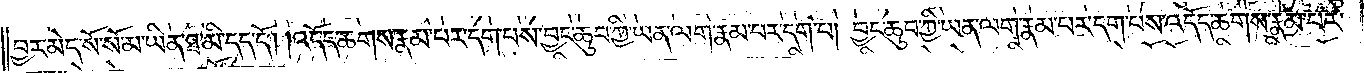བྱར་མེད་སོ་སོ་མ་ཡིན་ཐ་མི་དད་དོ། །འདོད་ཆགས་རྣམ་པར་དག་པས་བྱང་ཆུབ་ཀྱི་ཡན་ལག་རྣམ་པར་དག་པ། བྱང་ཆུབ་ཀྱི་ཡན་ལག་རྣམ་པར་དག་པས་འདོད་ཆགས་རྣམ་པར་
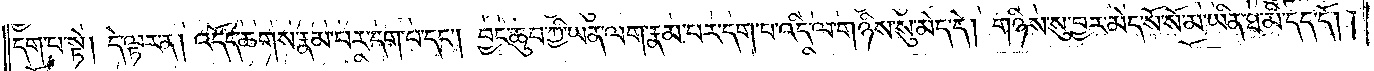དག་པ་སྟེ། དེ་ལྟར་ན། འདོད་ཆགས་རྣམ་པར་དག་པ་དང༌། བྱང་ཆུབ་ཀྱི་ཡན་ལག་རྣམ་པར་དག་པ་འདི་ལ་གཉིས་སུ་མེད་དེ། གཉིས་སུ་བྱར་མེད་སོ་སོ་མ་ཡིན་ཐ་མི་དད་དོ། །
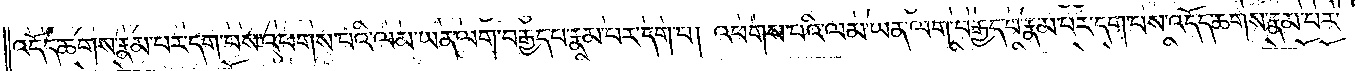འདོད་ཆགས་རྣམ་པར་དག་པས་འཕགས་པའི་ལམ་ཡན་ལག་བརྒྱད་པ་རྣམ་པར་དག་པ། འཕགས་པའི་ལམ་ཡན་ལག་བརྒྱད་པ་རྣམ་པར་དག་པས་འདོད་ཆགས་རྣམ་པར་
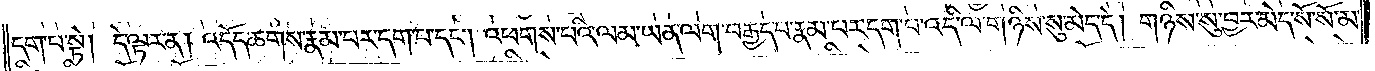དག་པ་སྟེ། དེ་ལྟར་ན། འདོད་ཆགས་རྣམ་པར་དག་པ་དང༌། འཕགས་པའི་ལམ་ཡན་ལག་བརྒྱད་པ་རྣམ་པར་དག་པ་འདི་ལ་གཉིས་སུ་མེད་དེ། གཉིས་སུ་བྱར་མེད་སོ་སོ་མ་
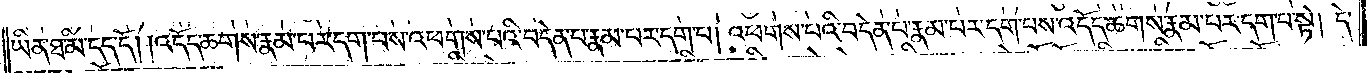ཡིན་ཐ་མི་དད་དོ། །འདོད་ཆགས་རྣམ་པར་དག་པས་འཕགས་པའི་བདེན་པ་རྣམ་པར་དག་པ། འཕགས་པའི་བདེན་པ་རྣམ་པར་དག་པས་འདོད་ཆགས་རྣམ་པར་དག་པ་སྟེ། དེ་
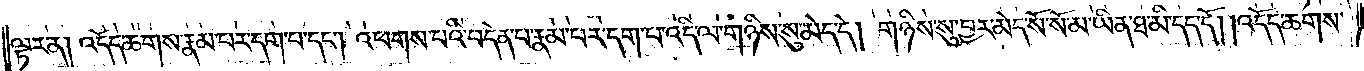ལྟར་ན། འདོད་ཆགས་རྣམ་པར་དག་པ་དང༌། འཕགས་པའི་བདེན་པ་རྣམ་པར་དག་པ་འདི་ལ་གཉིས་སུ་མེད་དེ། གཉིས་སུ་བྱར་མེད་སོ་སོ་མ་ཡིན་ཐ་མི་དད་དོ། །འདོད་ཆགས་
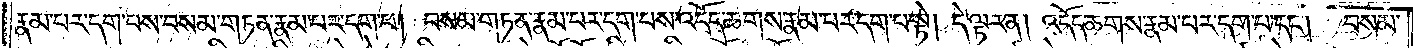རྣམ་པར་དག་པས་བསམ་གཏན་རྣམ་པར་དག་པ། བསམ་གཏན་རྣམ་པར་དག་པས་འདོད་ཆགས་རྣམ་པར་དག་པ་སྟེ། དེ་ལྟར་ན། འདོད་ཆགས་རྣམ་པར་དག་པ་དང༌། བསམ་
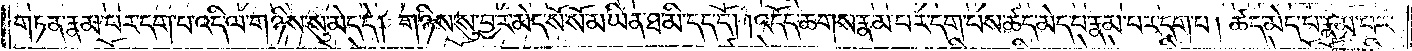གཏན་རྣམ་པར་དག་པ་འདི་ལ་གཉིས་སུ་མེད་དེ། གཉིས་སུ་བྱར་མེད་སོ་སོ་མ་ཡིན་ཐ་མི་དད་དོ། །འདོད་ཆགས་རྣམ་པར་དག་པས་ཚད་མེད་པ་རྣམ་པར་དག་པ། ཚད་མེད་པ་རྣམ་པར་
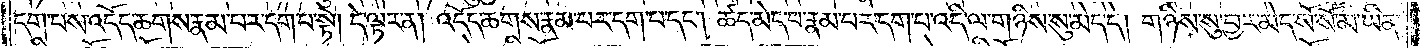དག་པས་འདོད་ཆགས་རྣམ་པར་དག་པ་སྟེ། དེ་ལྟར་ན། འདོད་ཆགས་རྣམ་པར་དག་པ་དང༌། ཚད་མེད་པ་རྣམ་པར་དག་པ་འདི་ལ་གཉིས་སུ་མེད་དེ། གཉིས་སུ་བྱར་མེད་སོ་སོ་མ་ཡིན་
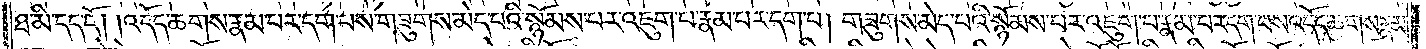ཐ་མི་དད་དོ། །འདོད་ཆགས་རྣམ་པར་དག་པས་གཟུགས་མེད་པའི་སྙོམས་པར་འཇུག་པ་རྣམ་པར་དག་པ། གཟུགས་མེད་པའི་སྙོམས་པར་འཇུག་པ་རྣམ་པར་དག་པས་འདོད་ཆགས་རྣམ་
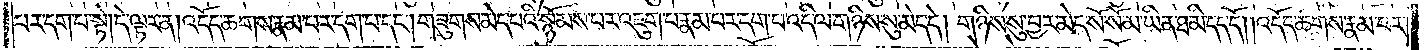པར་དག་པ་སྟེ། དེ་ལྟར་ན། འདོད་ཆགས་རྣམ་པར་དག་པ་དང༌། གཟུགས་མེད་པའི་སྙོམས་པར་འཇུག་པ་རྣམ་པར་དག་པ་འདི་ལ་གཉིས་སུ་མེད་དེ། གཉིས་སུ་བྱར་མེད་སོ་སོ་མ་ཡིན་ཐ་མི་དད་དོ། །འདོད་ཆགས་རྣམ་པར་
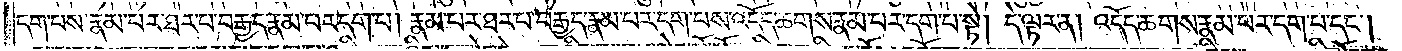དག་པས་རྣམ་པར་ཐར་པ་བརྒྱད་རྣམ་པར་དག་པ། རྣམ་པར་ཐར་པ་བརྒྱད་རྣམ་པར་དག་པས་འདོད་ཆགས་རྣམ་པར་དག་པ་སྟེ། དེ་ལྟར་ན། འདོད་ཆགས་རྣམ་པར་དག་པ་དང༌།
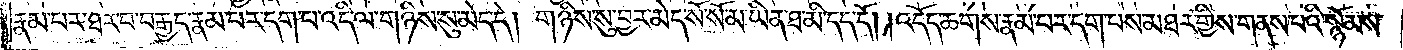རྣམ་པར་ཐར་བ་བརྒྱད་རྣམ་པར་དག་པ་འདི་ལ་གཉིས་སུ་མེད་དེ། གཉིས་སུ་བྱར་མེད་སོ་སོ་མ་ཡིན་ཐ་མི་དད་དོ། །འདོད་ཆགས་རྣམ་པར་དག་པས་མཐར་གྱིས་གནས་པའི་སྙོམས་
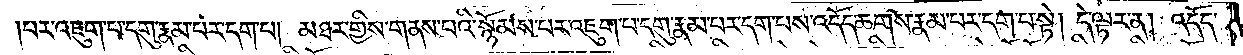པར་འཇུག་པ་དགུ་རྣམ་པར་དག་པ། མཐར་གྱིས་གནས་པའི་སྙོམས་པར་འཇུག་པ་དགུ་རྣམ་པར་དག་པས་འདོད་ཆགས་རྣམ་པར་དག་པ་སྟེ། དེ་ལྟར་ན། འདོད་
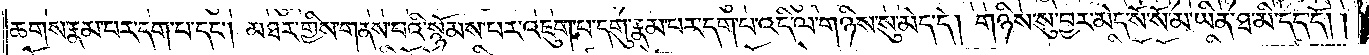ཆགས་རྣམ་པར་དག་པ་དང༌། མཐར་གྱིས་གནས་པའི་སྙོམས་པར་འཇུག་པ་དགུ་རྣམ་པར་དག་པ་འདི་ལ་གཉིས་སུ་མེད་དེ། གཉིས་སུ་བྱར་མེད་སོ་སོ་མ་ཡིན་ཐ་མི་དད་དོ། །
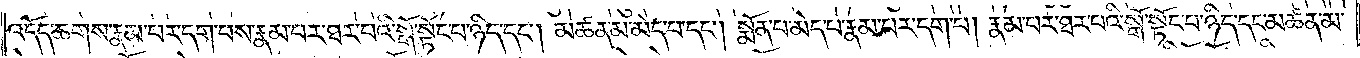འདོད་ཆགས་རྣམ་པར་དག་པས་རྣམ་པར་ཐར་པའི་སྒོ་སྟོང་པ་ཉིད་དང༌། མཚན་མ་མེད་པ་དང༌། སྨོན་པ་མེད་པ་རྣམ་པར་དག་པ། རྣམ་པར་ཐར་པའི་སྒོ་སྟོང་པ་ཉིད་དང་མཚན་མ་
